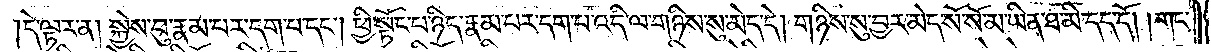དེ་ལྟར་ན། སྐྱེས་བུ་རྣམ་པར་དག་པ་དང༌། ཕྱི་སྟོང་པ་ཉིད་རྣམ་པར་དག་པ་འདི་ལ་གཉིས་སུ་མེད་དེ། གཉིས་སུ་བྱར་མེད་སོ་སོ་མ་ཡིན་ཐ་མི་དད་དོ། །གང་
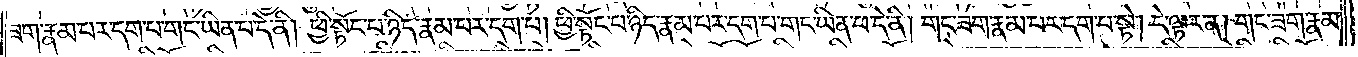ཟག་རྣམ་པར་དག་པ་གང་ཡིན་པ་དེ་ནི། ཕྱི་སྟོང་པ་ཉིད་རྣམ་པར་དག་པ། ཕྱི་སྟོང་པ་ཉིད་རྣམ་པར་དག་པ་གང་ཡིན་པ་དེ་ནི། གང་ཟག་རྣམ་པར་དག་པ་སྟེ། དེ་ལྟར་ན། གང་ཟག་རྣམ་
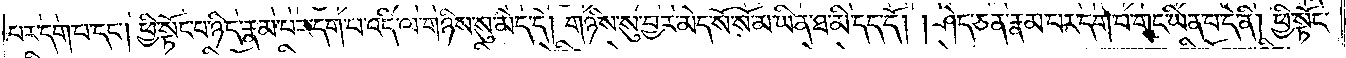པར་དག་པ་དང༌། ཕྱི་སྟོང་པ་ཉིད་རྣམ་པར་དག་པ་འདི་ལ་གཉིས་སུ་མེད་དེ། གཉིས་སུ་བྱར་མེད་སོ་སོ་མ་ཡིན་ཐ་མི་དད་དོ། །ཤེད་ཅན་རྣམ་པར་དག་པ་གང་ཡིན་པ་དེ་ནི། ཕྱི་སྟོང་
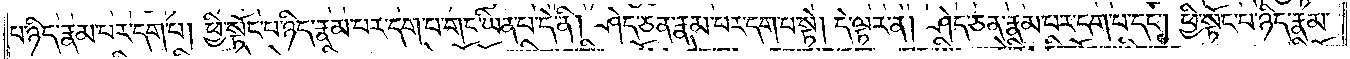པ་ཉིད་རྣམ་པར་དག་པ། ཕྱི་སྟོང་པ་ཉིད་རྣམ་པར་དག་པ་གང་ཡིན་པ་དེ་ནི། ཤེད་ཅན་རྣམ་པར་དག་པ་སྟེ། དེ་ལྟར་ན། ཤེད་ཅན་རྣམ་པར་དག་བ་དང༌། ཕྱི་སྟོང་པ་ཉིད་རྣམ་
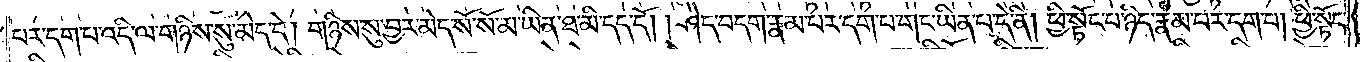པར་དག་པ་འདི་ལ་གཉིས་སུ་མེད་དེ། གཉིས་སུ་བྱར་མེད་སོ་སོ་མ་ཡིན་ཐ་མི་དད་དོ། །ཤེད་བདག་རྣམ་པར་དག་པ་གང་ཡིན་པ་དེ་ནི། ཕྱི་སྟོང་པ་ཉིད་རྣམ་པར་དག་པ། ཕྱི་སྟོང་
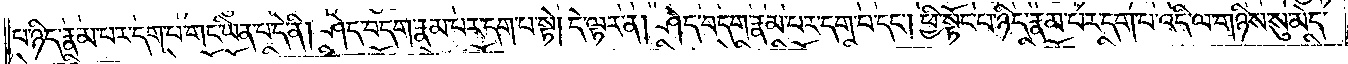པ་ཉིད་རྣམ་པར་དག་པ་གང་ཡིན་པ་དེ་ནི། ཤེད་བདག་རྣམ་པར་དག་པ་སྟེ། དེ་ལྟར་ན། ཤེད་བདག་རྣམ་པར་དག་པ་དང༌། ཕྱི་སྟོང་པ་ཉིད་རྣམ་པར་དག་པ་འདི་ལ་གཉིས་སུ་མེད་
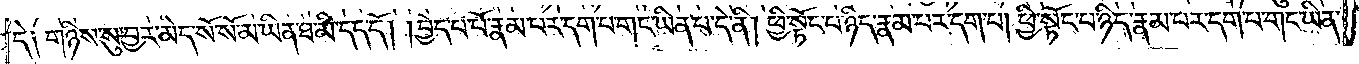དེ། གཉིས་སུ་བྱར་མེད་སོ་སོ་མ་ཡིན་ཐ་མི་དད་དོ། །བྱེད་པ་པོ་རྣམ་པར་དག་པ་གང་ཡིན་པ་དེ་ནི། ཕྱི་སྟོང་པ་ཉིད་རྣམ་པར་དག་པ། ཕྱི་སྟོང་པ་ཉིད་རྣམ་པར་དག་པ་གང་ཡིན་
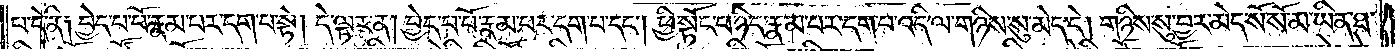པ་དེ་ནི། བྱེད་པ་པོ་རྣམ་པར་དག་པ་སྟེ། དེ་ལྟར་ན། བྱེད་པ་པོ་རྣམ་པར་དག་པ་དང༌། ཕྱི་སྟོང་པ་ཉིད་རྣམ་པར་དག་པ་འདི་ལ་གཉིས་སུ་མེད་དེ། གཉིས་སུ་བྱར་མེད་སོ་སོ་མ་ཡིན་ཐ་
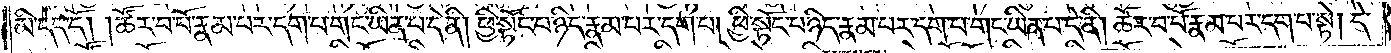མི་དད་དོ། །ཚོར་བ་པོ་རྣམ་པར་དག་པ་གང་ཡིན་པ་དེ་ནི། ཕྱི་སྟོང་པ་ཉིད་རྣམ་པར་དག་པ། ཕྱི་སྟོང་པ་ཉིད་རྣམ་པར་དག་པ་གང་ཡིན་པ་དེ་ནི། ཚོར་བ་པོ་རྣམ་པར་དག་པ་སྟེ། དེ་
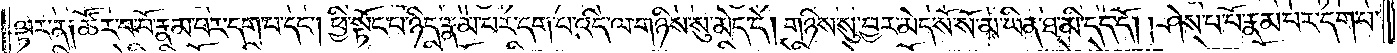ལྟར་ན། ཚོར་བ་པོ་རྣམ་པར་དག་པ་དང༌། ཕྱི་སྟོང་པ་ཉིད་རྣམ་པར་དག་པ་འདི་ལ་གཉིས་སུ་མེད་དེ། གཉིས་སུ་བྱར་མེད་སོ་སོ་མ་ཡིན་ཐ་མི་དད་དོ། །ཤེས་པ་པོ་རྣམ་པར་དག་པ་
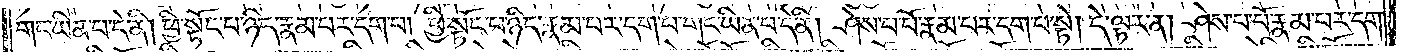གང་ཡིན་པ་དེ་ནི། ཕྱི་སྟོང་པ་ཉིད་རྣམ་པར་དག་པ། ཕྱི་སྟོང་པ་ཉིད་རྣམ་པར་དག་པ་གང་ཡིན་པ་དེ་ནི། ཤེས་པ་པོ་རྣམ་པར་དག་པ་སྟེ། དེ་ལྟར་ན། ཤེས་པ་པོ་རྣམ་པར་དག་
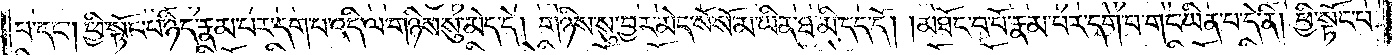པ་དང༌། ཕྱི་སྟོང་པ་ཉིད་རྣམ་པར་དག་པ་འདི་ལ་གཉིས་སུ་མེད་དེ། གཉིས་སུ་བྱར་མེད་སོ་སོ་མ་ཡིན་ཐ་མི་དད་དོ། །མཐོང་བ་པོ་རྣམ་པར་དག་པ་གང་ཡིན་པ་དེ་ནི། ཕྱི་སྟོང་པ་
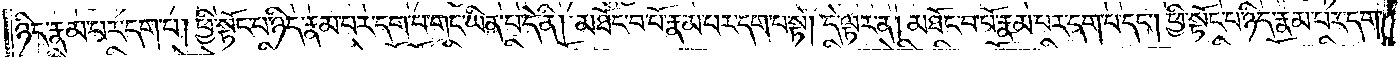ཉིད་རྣམ་པར་དག་པ། ཕྱི་སྟོང་པ་ཉིད་རྣམ་པར་དག་པ་གང་ཡིན་པ་དེ་ནི། མཐོང་བ་པོ་རྣམ་པར་དག་པ་སྟེ། དེ་ལྟར་ན། མཐོང་བ་པོ་རྣམ་པར་དག་པ་དང༌། ཕྱི་སྟོང་པ་ཉིད་རྣམ་པར་དག་
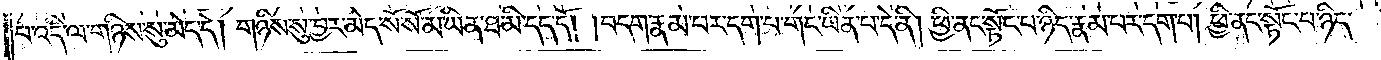པ་འདི་ལ་གཉིས་སུ་མེད་དེ། གཉིས་སུ་བྱར་མེད་སོ་སོ་མ་ཡིན་ཐ་མི་དད་དོ། །བདག་རྣམ་པར་དག་པ་གང་ཡིན་པ་དེ་ནི། ཕྱི་ནང་སྟོང་པ་ཉིད་རྣམ་པར་དག་པ། ཕྱི་ནང་སྟོང་པ་ཉིད་
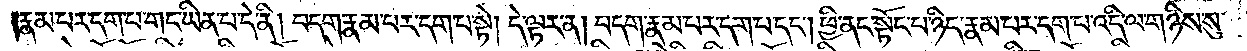རྣམ་པར་དག་པ་གང་ཡིན་པ་དེ་ནི། བདག་རྣམ་པར་དག་པ་སྟེ། དེ་ལྟར་ན། བདག་རྣམ་པར་དག་པ་དང༌། ཕྱི་ནང་སྟོང་པ་ཉིད་རྣམ་པར་དག་པ་འདི་ལ་གཉིས་སུ་
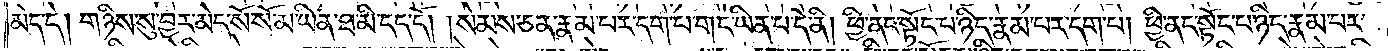མེད་དེ། གཉིས་སུ་བྱར་མེད་སོ་སོ་མ་ཡིན་ཐ་མི་དད་དོ། །སེམས་ཅན་རྣམ་པར་དག་པ་གང་ཡིན་པ་དེ་ནི། ཕྱི་ནང་སྟོང་པ་ཉིད་རྣམ་པར་དག་པ། ཕྱི་ནང་སྟོང་པ་ཉིད་རྣམ་པར་
